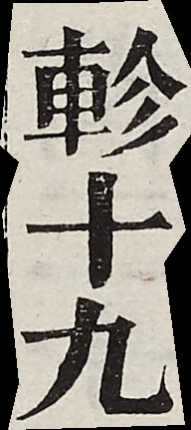軫十九
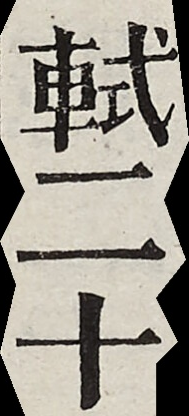軾二十
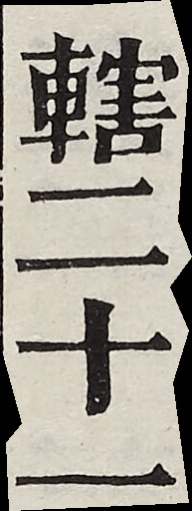轄二十一
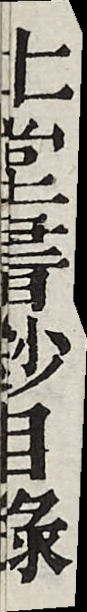北堂書鈔目錄
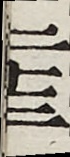二七二
